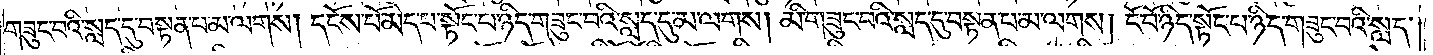གཟུང་བའི་སླད་དུ་བསྟན་པ་མ་ལགས། དངོས་པོ་མེད་པ་སྟོང་པ་ཉིད་གཟུང་བའི་སླད་དུ་མ་ལགས། མི་གཟུང་བའི་སླད་དུ་བསྟན་པ་མ་ལགས། ངོ་བོ་ཉིད་སྟོང་པ་ཉིད་གཟུང་བའི་སླད་
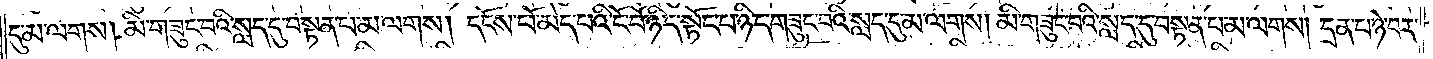དུ་མ་ལགས། མི་གཟུང་བའི་སླད་དུ་བསྟན་པ་མ་ལགས། དངོས་པོ་མེད་པའི་ངོ་བོ་ཉིད་སྟོང་པ་ཉིད་གཟུང་བའི་སླད་དུ་མ་ལགས། མི་གཟུང་བའི་སླད་དུ་བསྟན་པ་མ་ལགས། དྲན་པ་ཉེ་བར་
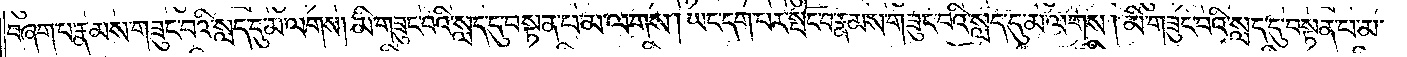བཞག་པ་རྣམས་གཟུང་བའི་སླད་དུ་མ་ལགས། མི་གཟུང་བའི་སླད་དུ་བསྟན་པ་མ་ལགས། ཡང་དག་པར་སྤོང་བ་རྣམས་གཟུང་བའི་སླད་དུ་མ་ལགས། མི་གཟུང་བའི་སླད་དུ་བསྟན་པ་མ་
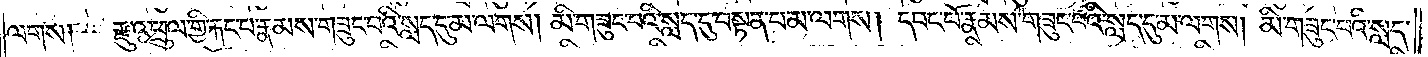ལགས། རྫུ་འཕྲུལ་གྱི་རྐང་པ་རྣམས་གཟུང་བའི་སླད་དུ་མ་ལགས། མི་གཟུང་བའི་སླད་དུ་བསྟན་པ་མ་ལགས། དབང་པོ་རྣམས་གཟུང་བའི་སླད་དུ་མ་ལགས། མི་གཟུང་བའི་སླད་
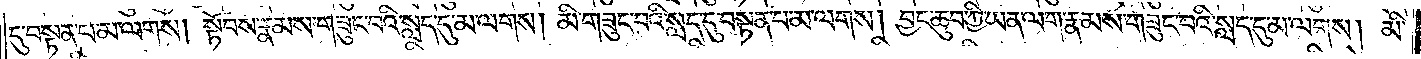དུ་བསྟན་པ་མ་ལགས། སྟོབས་རྣམས་གཟུང་བའི་སླད་དུ་མ་ལགས། མི་གཟུང་བའི་སླད་དུ་བསྟན་པ་མ་ལགས། བྱང་ཆུབ་ཀྱི་ཡན་ལག་རྣམས་གཟུང་བའི་སླད་དུ་མ་ལགས། མི་
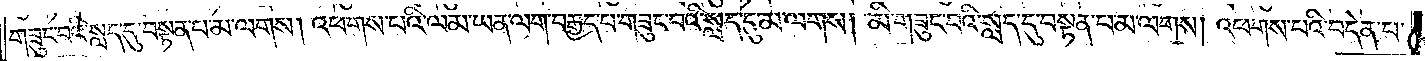གཟུང་བའི་སླད་དུ་བསྟན་པ་མ་ལགས། འཕགས་པའི་ལམ་ཡན་ལག་བརྒྱད་པ་གཟུང་བའི་སླད་དུ་མ་ལགས། མི་གཟུང་བའི་སླད་དུ་བསྟན་པ་མ་ལགས། འཕགས་པའི་བདེན་པ་
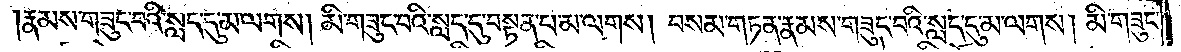རྣམས་གཟུང་བའི་སླད་དུ་མ་ལགས། མི་གཟུང་བའི་སླད་དུ་བསྟན་པ་མ་ལགས། བསམ་གཏན་རྣམས་གཟུང་བའི་སླད་དུ་མ་ལགས། མི་གཟུང་
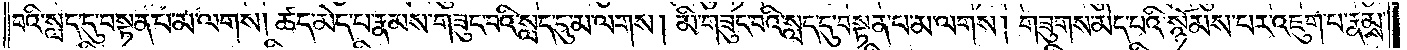བའི་སླད་དུ་བསྟན་པ་མ་ལགས། ཚད་མེད་པ་རྣམས་གཟུང་བའི་སླད་དུ་མ་ལགས། མི་གཟུང་བའི་སླད་དུ་བསྟན་པ་མ་ལགས། གཟུགས་མེད་པའི་སྙོམས་པར་འཇུག་པ་རྣམས་
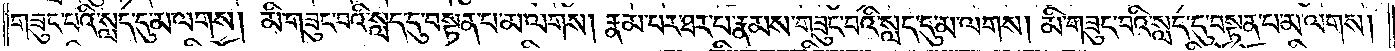གཟུང་བའི་སླད་དུ་མ་ལགས། མི་གཟུང་བའི་སླད་དུ་བསྟན་པ་མ་ལགས། རྣམ་པར་ཐར་པ་རྣམས་གཟུང་བའི་སླད་དུ་མ་ལགས། མི་གཟུང་བའི་སླད་དུ་བསྟན་པ་མ་ལགས།
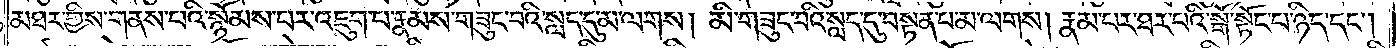མཐར་གྱིས་གནས་པའི་སྙོམས་པར་འཇུག་པ་རྣམས་གཟུང་བའི་སླད་དུ་མ་ལགས། མི་གཟུང་བའི་སླད་དུ་བསྟན་པ་མ་ལགས། རྣམ་པར་ཐར་པའི་སྒོ་སྟོང་པ་ཉིད་དང༌།
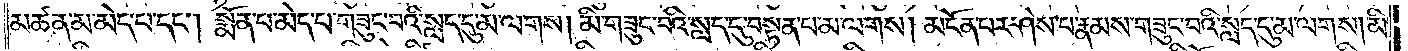མཚན་མ་མེད་པ་དང༌། སྨོན་པ་མེད་པ་གཟུང་བའི་སླད་དུ་མ་ལགས། མི་གཟུང་བའི་སླད་དུ་བསྟན་པ་མ་ལགས། མངོན་པར་ཤེས་པ་རྣམས་གཟུང་བའི་སླད་དུ་མ་ལགས། མི་
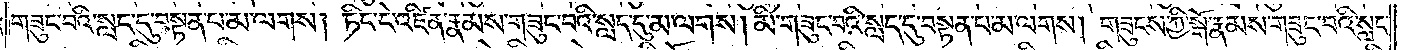གཟུང་བའི་སླད་དུ་བསྟན་པ་མ་ལགས། ཏིང་ངེ་འཛིན་རྣམས་གཟུང་བའི་སླད་དུ་མ་ལགས༎ མི་གཟུང་བའི་སླད་དུ་བསྟན་པ་མ་ལགས། གཟུངས་ཀྱི་སྒོ་རྣམས་གཟུང་བའི་སླད་
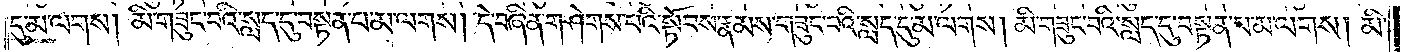དུ་མ་ལགས། མི་གཟུང་བའི་སླད་དུ་བསྟན་པ་མ་ལགས། དེ་བཞིན་གཤེགས་པའི་སྟོབས་རྣམས་གཟུང་བའི་སླད་དུ་མ་ལགས། མི་གཟུང་བའི་སླད་དུ་བསྟན་པ་མ་ལགས། མི་
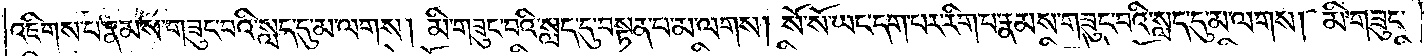འཇིགས་པ་རྣམས་གཟུང་བའི་སླད་དུ་མ་ལགས། མི་གཟུང་བའི་སླད་དུ་བསྟན་པ་མ་ལགས། སོ་སོ་ཡང་དག་པར་རིག་པ་རྣམས་གཟུང་བའི་སླད་དུ་མ་ལགས། མི་གཟུང་
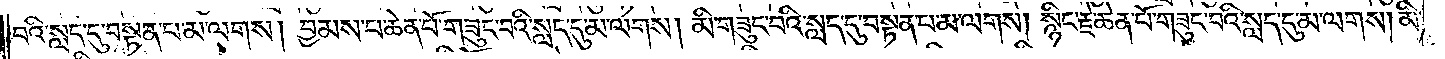བའི་སླད་དུ་བསྟན་པ་མ་ལགས། བྱམས་པ་ཆེན་པོ་གཟུང་བའི་སླད་དུ་མ་ལགས། མི་གཟུང་བའི་སླད་དུ་བསྟན་པ་མ་ལགས། སྙིང་རྗེ་ཆེན་པོ་གཟུང་བའི་སླད་དུ་མ་ལགས། མི་
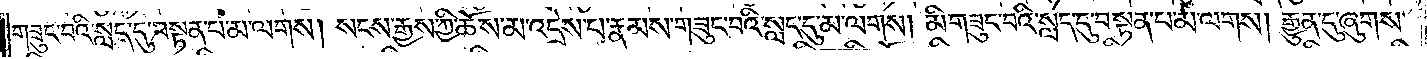གཟུང་བའི་སླད་དུ་བསྟན་པ་མ་ལགས། སངས་རྒྱས་ཀྱི་ཆོས་མ་འདྲེས་པ་རྣམས་གཟུང་བའི་སླད་དུ་མ་ལགས། མི་གཟུང་བའི་སླད་དུ་བསྟན་པ་མ་ལགས། རྒྱུན་དུ་ཞུགས་
